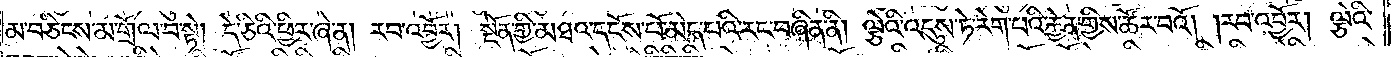མ་བཅིངས་མ་གྲོལ་བ་སྟེ། དེ་ཅིའི་ཕྱིར་ཞེ་ན། རབ་འབྱོར། སྔོན་གྱི་མཐའ་དངོས་པོ་མེད་པའི་རང་བཞིན་ནི། ལྕེའི་འདུས་ཏེ་རེག་པའི་རྐྱེན་གྱིས་ཚོར་བའོ། །རབ་འབྱོར། ལྕེའི་
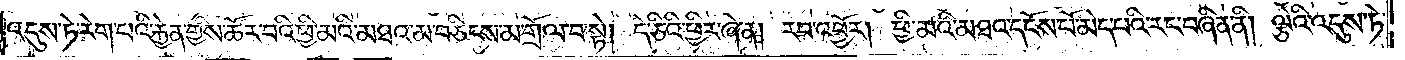འདུས་ཏེ་རེག་པའི་རྐྱེན་གྱིས་ཚོར་བའི་ཕྱི་མའི་མཐའ་མ་བཅིངས་མ་གྲོལ་བ་སྟེ། དེ་ཅིའི་ཕྱིར་ཞེ་ན། རབ་འབྱོར། ཕྱི་མའི་མཐའ་དངོས་པོ་མེད་པའི་རང་བཞིན་ནི། ལྕེའི་འདུས་ཏེ་
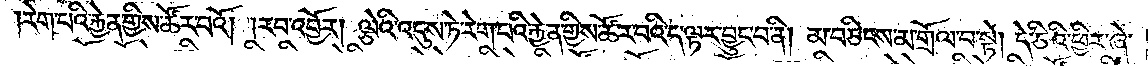རེག་པའི་རྐྱེན་གྱིས་ཚོར་བའོ། །རབ་འབྱོར། ལྕེའི་འདུས་ཏེ་རེག་པའི་རྐྱེན་གྱིས་ཚོར་བའི་ད་ལྟར་བྱུང་བ་ནི། མ་བཅིངས་མ་གྲོལ་བ་སྟེ། དེ་ཅིའི་ཕྱིར་ཞེ་
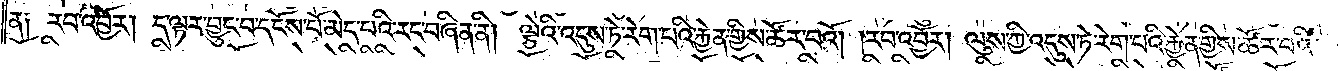ན༑ རབ་འབྱོར། ད་ལྟར་བྱུང་བ་དངོས་པོ་མེད་པའི་རང་བཞིན་ནི། ལྕེའི་འདུས་ཏེ་རེག་པའི་རྐྱེན་གྱིས་ཚོར་བའོ། །རབ་འབྱོར། ལུས་ཀྱི་འདུས་ཏེ་རེག་པའི་རྐྱེན་གྱིས་ཚོར་བའི་
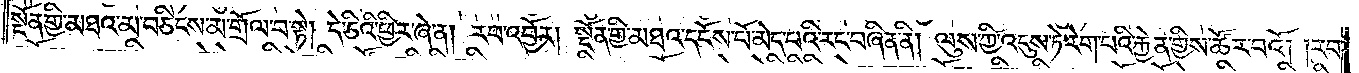སྔོན་གྱི་མཐའ་མ་བཅིངས་མ་གྲོལ་བ་སྟེ། དེ་ཅིའི་ཕྱིར་ཞེ་ན། རབ་འབྱོར། སྔོན་གྱི་མཐའ་དངོས་པོ་མེད་པའི་རང་བཞིན་ནི། ལུས་ཀྱི་འདུས་ཏེ་རེག་པའི་རྐྱེན་གྱིས་ཚོར་བའོ། །རབ་
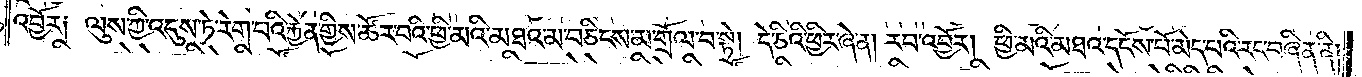འབྱོར༑ ལུས་ཀྱི་འདུས་ཏེ་རེག་པའི་རྐྱེན་གྱིས་ཚོར་བའི་ཕྱི་མའི་མཐའ་མ་བཅིངས་མ་གྲོལ་བ་སྟེ། དེ་ཅིའི་ཕྱིར་ཞེ་ན། རབ་འབྱོར། ཕྱི་མའི་མཐའ་དངོས་པོ་མེད་པའི་རང་བཞིན་ནི།
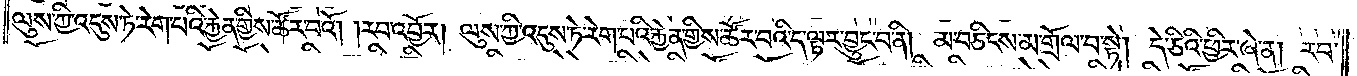ལུས་ཀྱི་འདུས་ཏེ་རེག་པའི་རྐྱེན་གྱིས་ཚོར་བའོ། །རབ་འབྱོར། ལུས་ཀྱི་འདུས་ཏེ་རེག་པའི་རྐྱེན་གྱིས་ཚོར་བའི་ད་ལྟར་བྱུང་བ་ནི། མ་བཅིངས་མ་གྲོལ་བ་སྟེ། དེ་ཅིའི་ཕྱིར་ཞེ་ན། རབ་
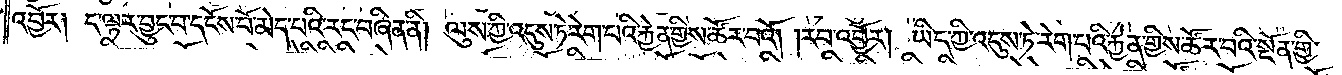འབྱོར༑ ད་ལྟར་བྱུང་བ་དངོས་པོ་མེད་པའི་རང་བཞིན་ནི། ལུས་ཀྱི་འདུས་ཏེ་རེག་པའི་རྐྱེན་གྱིས་ཚོར་བའོ། །རབ་འབྱོར། ཡིད་ཀྱི་འདུས་ཏེ་རེག་པའི་རྐྱེན་གྱིས་ཚོར་བའི་སྔོན་གྱི་
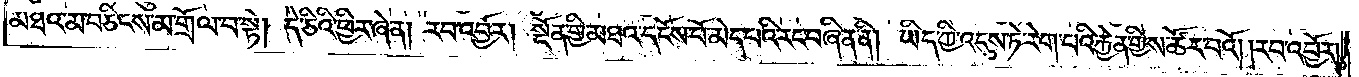མཐའ་མ་བཅིངས་མ་གྲོལ་བ་སྟེ། དི་ཅིའི་ཕྱིར་ཞེ་ན། རབ་འབྱོར། སྔོན་གྱི་མཐའ་དངོས་པོ་མེད་པའི་རང་བཞིན་ནི། ཡིད་ཀྱི་འདུས་ཏེ་རེག་པའི་རྐྱེན་གྱིས་ཚོར་བའོ། །རབ་འབྱོར།
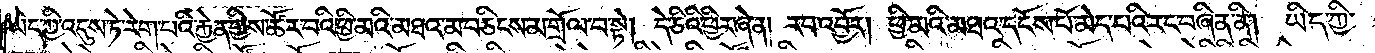ཡིད་ཀྱི་འདུས་ཏེ་རེག་པའི་རྐྱེན་གྱིས་ཚོར་བའི་ཕྱི་མའི་མཐའ་མ་བཅིངས་མ་གྲོལ་བ་སྟེ། དེ་ཅིའི་ཕྱིར་ཞེ་ན། རབ་འབྱོར། ཕྱི་མའི་མཐའ་དངོས་པོ་མེད་པའི་རང་བཞིན་ནི། ཡིད་ཀྱི་
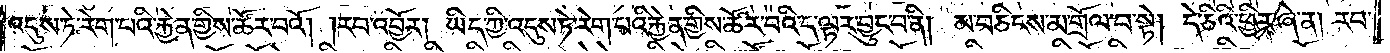འདུས་ཏེ་རེག་པའི་རྐྱེན་གྱིས་ཚོར་བའོ། །རབ་འབྱོར། ཡིད་ཀྱི་འདུས་ཏེ་རེག་པའི་རྐྱེན་གྱིས་ཚོར་བའི་ད་ལྟར་བྱུང་བ་ནི། མ་བཅིངས་མ་གྲོལ་བ་སྟེ། དེ་ཅིའི་ཕྱིར་ཞེ་ན། རབ་
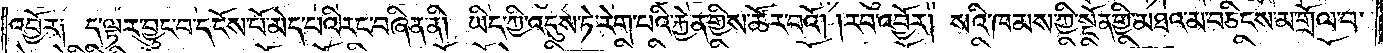འབྱོར༑ ད་ལྟར་བྱུང་བ་དངོས་པོ་མེད་པའི་རང་བཞིན་ནི། ཡིད་ཀྱི་འདུས་ཏེ་རེག་པའི་རྐྱེན་གྱིས་ཚོར་བའོ། །རབ་འབྱོར། སའི་ཁམས་ཀྱི་སྔོན་གྱི་མཐའ་མ་བཅིངས་མ་གྲོལ་བ་
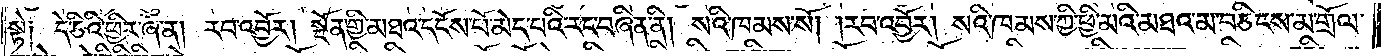སྟེ༑ དེ་ཅིའི་ཕྱིར་ཞེ་ན། རབ་འབྱོར། སྔོན་གྱི་མཐའ་དངོས་པོ་མེད་པའི་རང་བཞིན་ནི། སའི་ཁམས་སོ། །རབ་འབྱོར། སའི་ཁམས་ཀྱི་ཕྱི་མའི་མཐའ་མ་བཅིངས་མ་གྲོལ་
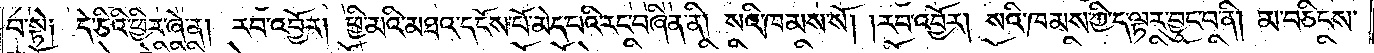བ་སྟེ། དེ་ཅིའི་ཕྱིར་ཞེ་ན། རབ་འབྱོར། ཕྱི་མའི་མཐའ་དངོས་པོ་མེད་པའི་རང་བཞིན་ནི། སའི་ཁམས་སོ། །རབ་འབྱོར། སའི་ཁམས་ཀྱི་ད་ལྟར་བྱུང་བ་ནི། མ་བཅིངས་
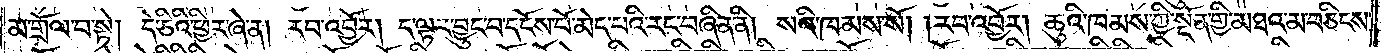མ་གྲོལ་བ་སྟེ། དེ་ཅིའི་ཕྱིར་ཞེ་ན། རབ་འབྱོར། ད་ལྟར་བྱུང་བ་དངོས་པོ་མེད་པའི་རང་བཞིན་ནི། སའི་ཁམས་སོ། །རབ་འབྱོར། ཆུའི་ཁམས་ཀྱི་སྔོན་གྱི་མཐའ་མ་བཅིངས་
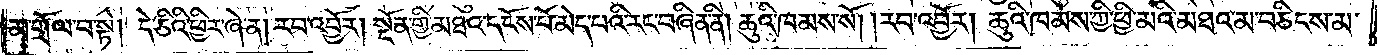མ་གྲོལ་བ་སྟེ། དེ་ཅིའི་ཕྱིར་ཞེ་ན། རབ་འབྱོར། སྔོན་གྱི་མཐའ་དངོས་པོ་མེད་པའི་རང་བཞིན་ནི། ཆུའི་ཁམས་སོ། །རབ་འབྱོར། ཆུའི་ཁམས་ཀྱི་ཕྱི་མའི་མཐའ་མ་བཅིངས་མ་
